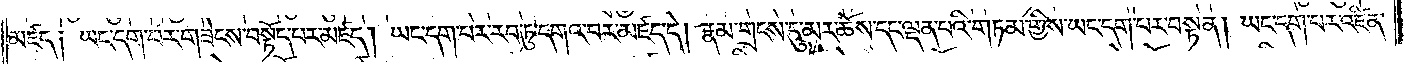མཛད༑ ཡང་དག་པར་གཟེངས་བསྟོད་པར་མཛད། ཡང་དག་པར་རབ་ཏུ་དགའ་བར་མཛད་དེ། རྣམ་གྲངས་དུ་མར་ཆོས་དང་ལྡན་པའི་གཏམ་གྱིས་ཡང་དག་པར་བསྟན། ཡང་དག་པར་འཛིན་
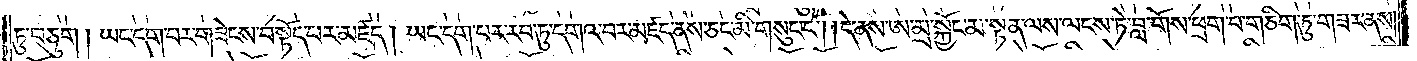ཏུ་བཅུག །ཡང་དག་པར་གཟེངས་བསྟོད་པར་མཛད། ཡང་དག་པར་རབ་ཏུ་དགའ་བར་མཛད་ནས་ཅང་མི་གསུང་ངོ༌། །དེ་ནས་ཨ་མྲ་སྐྱོང་མ་སྟན་ལས་ལངས་ཏེ་བླ་གོས་ཕྲག་པ་གཅིག་ཏུ་གཟར་ནས།
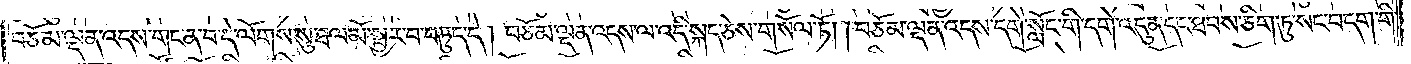བཅོམ་ལྡན་འདས་འདས་གང་ན་བ་དེ་ལོགས་སུ་ཐལ་མོ་སྦྱར་བ་བཏུད་དེ། བཅོམ་ལྡན་འདས་ལ་འདི་སྐད་ཅེས་གསོལ་ཏོ། །བཅོམ་ལྡན་འདས་དགེ་སློང་གི་དགེ་འདུན་དང་ཐབས་ཅིག་ཏུ་སང་བདག་གི་
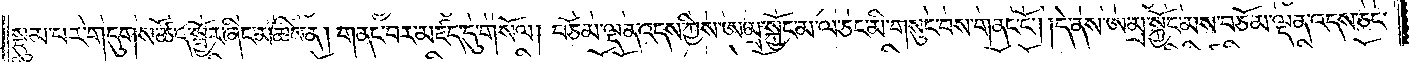སྡུམ་པར་གདུགས་ཚོད་སྦྱོར་ཞིང་མཆིས་ན། གནང་བར་མཛད་དུ་གསོལ། །བཅོམ་ལྡན་འདས་ཀྱིས་ཨ་མྲ་སྐྱོང་མ་ལ་ཅང་མི་གསུང་བས་གནང་ངོ༌། །དེ་ནས་ཨ་མྲ་སྐྱོང་མས་བཅོམ་ལྡན་འདས་ཅང་
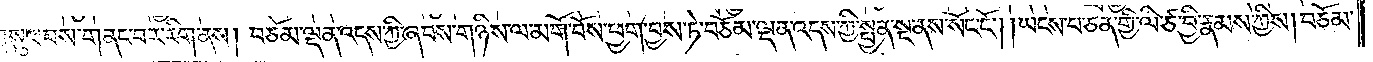མི་གསུང་བས་གནང་བར་རིག་ནས། བཅོམ་ལྡན་འདས་ཀྱི་ཞབས་གཉིས་ལ་མགོ་བོས་ཕྱག་བྱས་ཏེ་བཅོམ་ལྡན་འདས་ཀྱི་སྤྱན་སྔ་ནས་སོང་ངོ༌། །ཡངས་པ་ཅན་གྱི་ལི་ཙ་བྱི་རྣམས་ཀྱིས། བཅོམ་
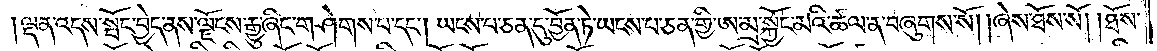ལྡན་འདས་སྤོང་བྱེད་ནས་ལྗོངས་རྒྱུ་ཞིང་གཤེགས་པ་དང༌། ཡངས་པ་ཅན་དུ་བྱོན་ཏེ་ཡངས་པ་ཅན་གྱི་ཨ་མྲ་སྐྱོང་མའི་ཚལ་ན་བཞུགས་སོ། །ཞེས་ཐོས་སོ། །ཐོས་
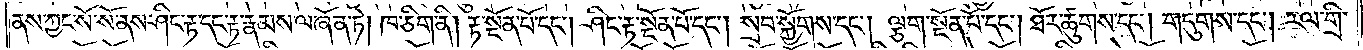ནས་ཀྱང་སོ་སོ་ནས་ཤིང་རྟ་དང་རྟ་རྣམས་ལ་ཞོན་ཏེ། ཁ་ཅིག་ནི། རྟ་སྔོན་པོ་དང༌། ཤིང་རྟ་སྔོན་པོ་དང༌། སྲབ་སྐྱོགས་དང༌། ལྕག་སྔོན་པོ་དང༌། ཐོར་ཚུགས་དང༌། གདུགས་དང༌། རལ་གྲི་
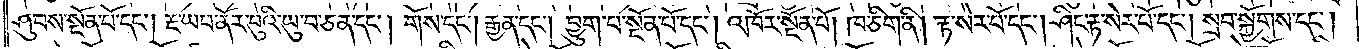ཤུབས་སྔོན་པོ་དང༌། རྔ་ཡབ་ནོར་བུའི་ཡུ་བ་ཅན་དང༌། གོས་དང༌། རྒྱན་དང༌། བྱུག་པ་སྔོན་པོ་དང༌། འཁོར་སྔོན་པོ། ཁ་ཅིག་ནི། རྟ་སེར་པོ་དང༌། ཤིང་རྟ་སེར་པོ་དང༌། སྲབ་སྐྱོགས་དང༌།
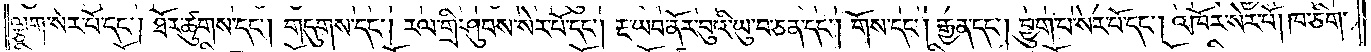ལྕག་སེར་པོ་དང༌། ཐོར་ཚུགས་དང༌། གདུགས་དང༌། རལ་གྲི་ཤུབས་སེར་པོ་དང༌། རྔ་ཡབ་ནོར་བུའི་ཡུ་བ་ཅན་དང༌། གོས་དང༌། རྒྱན་དང༌། བྱུག་པ་སེར་པོ་དང༌། འཁོར་སེར་པོ། ཁ་ཅིག་
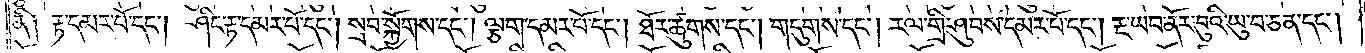ནི༑ རྟ་དམར་པོ་དང༌། ཤིང་རྟ་དམར་པོ་དང༌། སྲབ་སྐྱོགས་དང༌། ལྕག་དམར་པོ་དང༌། ཐོར་ཚུགས་དང༌། གདུགས་དང༌། རལ་གྲི་ཤུབས་དམར་པོ་དང༌། རྔ་ཡབ་ནོར་བུའི་ཡུ་བ་ཅན་དང༌།
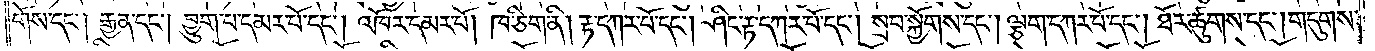གོས་དང༌། རྒྱན་དང༌། བྱུག་པ་དམར་པོ་དང༌། འཁོར་དམར་པོ། ཁ་ཅིག་ནི། རྟ་དཀར་པོ་དང༌། ཤིང་རྟ་དཀར་པོ་དང༌། སྲབ་སྐྱོགས་དང༌། ལྕག་དཀར་པོ་དང༌། ཐོར་ཚུགས་དང༌། གདུགས་
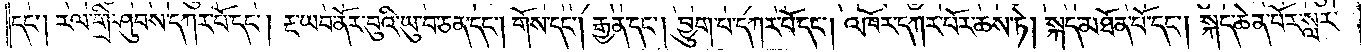དང༌། རལ་གྲི་ཤུབས་དཀར་པོ་དང༌། རྔ་ཡབ་ནོར་བུའི་ཡུ་བ་ཅན་དང༌། གོས་དང༌། རྒྱན་དང༌། བྱུག་པ་དཀར་པོ་དང༌། འཁོར་དཀར་པོར་ཆས་ཏེ། སྐད་མཐོན་པོ་དང༌། སྐད་ཆེན་པོར་སླར་
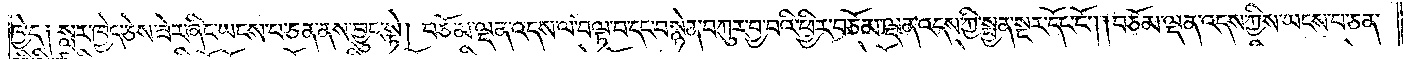ཁྱེད༑ སླར་ཁྱེད་ཅེས་ཟེར་ཞིང་ཡངས་པ་ཅན་ནས་བྱུང་སྟེ། བཅོམ་ལྡན་འདས་ལ་བལྟ་བ་དང་བསྙེན་བཀུར་བྱ་བའི་ཕྱིར་བཅོམ་ལྡན་འདས་ཀྱི་སྤྱན་སྔར་དོང་ངོ༌། །བཅོམ་ལྡན་འདས་ཀྱིས་ཡངས་པ་ཅན་
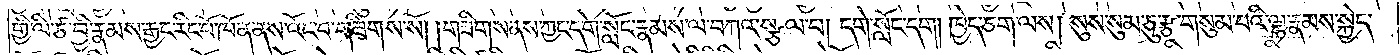གྱི་ལི་ཙ་བྱི་རྣམས་རྒྱང་རིང་པོ་ཁོ་ན་ནས་འོང་བ་གཟིགས་སོ། །གཟིགས་ནས་ཀྱང་དགེ་སློང་རྣམས་ལ་བཀའ་སྩལ་པ། དགེ་སློང་དག །ཁྱེད་ཅག་ལས། སུས་སུམ་ཅུ་རྩ་གསུམ་པའི་ལྷ་རྣམས་སྐྱེད་
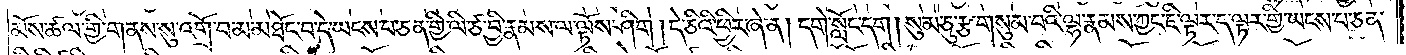མོས་ཚལ་གྱི་གནས་སུ་འགྲོ་བ་མ་མཐོང་བ་དེ་ཡངས་པ་ཅན་གྱི་ལི་ཙ་བྱི་རྣམས་ལ་ལྟོས་ཤིག །དེ་ཅིའི་ཕྱིར་ཞེ་ན། དགེ་སློང་དག །སུམ་ཅུ་རྩ་གསུམ་པའི་ལྷ་རྣམས་ཀྱང་ཇི་ལྟར་ད་ལྟར་གྱི་ཡངས་པ་ཅན་
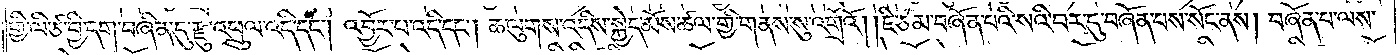གྱི་ལི་ཙ་བྱི་དག་བཞིན་དུ་རྫུ་འཕྲུལ་འདི་དང༌། འབྱོར་པ་འདི་དང༌། ཆ་ལུགས་འདིས་སྐྱེད་མོས་ཚལ་གྱི་གནས་སུ་འགྲོའོ། །ཇི་ཙམ་བཞོན་པའི་སའི་བར་དུ་བཞོན་པས་སོང་ནས། བཞོན་པ་ལས་
